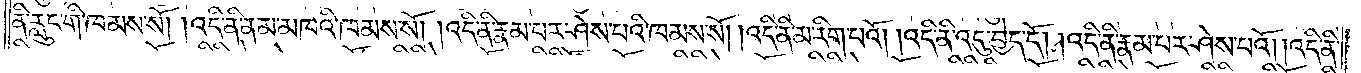ནི་རླུང་གི་ཁམས་སོ། །འདི་ནི་ནམ་མཁའི་ཁམས་སོ། །འདི་ནི་རྣམ་པར་ཤེས་པའི་ཁམས་སོ། །འདི་ནི་མ་རིག་པའོ། །འདི་ནི་འདུ་བྱེད་དོ། །འདི་ནི་རྣམ་པར་ཤེས་པའོ། །འདི་ནི་
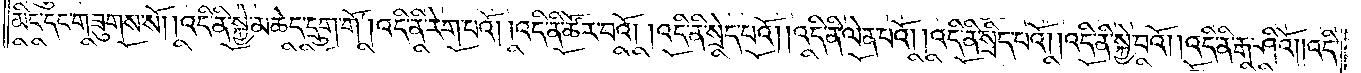མིང་དང་གཟུགས་སོ། །འདི་ནི་སྐྱེ་མཆེད་དྲུག་གོ །འདི་ནི་རེག་པའོ། །འདི་ནི་ཚོར་བའོ༎ འདི་ནི་སྲེད་པའོ། །འདི་ནི་ལེན་པའོ། །འདི་ནི་སྲིད་པའོ། །འདི་ནི་སྐྱེ་བའོ། །འདི་ནི་རྒ་ཤིའོ། །འདི་
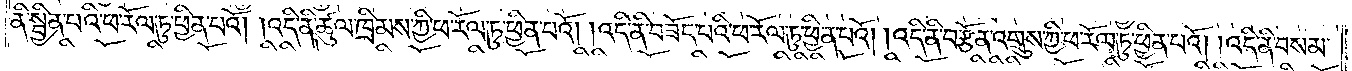ནི་སྦྱིན་པའི་ཕ་རོལ་ཏུ་ཕྱིན་པའོ། །འདི་ནི་ཚུལ་ཁྲིམས་ཀྱི་ཕ་རོལ་ཏུ་ཕྱིན་པའོ། །འདི་ནི་བཟོད་པའི་ཕ་རོལ་ཏུ་ཕྱིན་པའོ། །འདི་ནི་བརྩོན་འགྲུས་ཀྱི་ཕ་རོལ་ཏུ་ཕྱིན་པའོ། །འདི་ནི་བསམ་
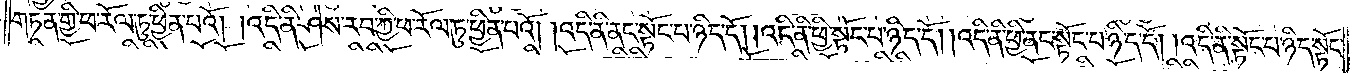གཏན་གྱི་ཕ་རོལ་ཏུ་ཕྱིན་པའོ། །འདི་ནི་ཤེས་རབ་ཀྱི་ཕ་རོལ་ཏུ་ཕྱིན་པའོ། །འདི་ནི་ནང་སྟོང་པ་ཉིད་དོ། །འདི་ནི་ཕྱི་སྟོང་པ་ཉིད་དོ། །འདི་ནི་ཕྱི་ནང་སྟོང་པ་ཉིད་དོ། །འདི་ནི་སྟོང་པ་ཉིད་སྟོང་
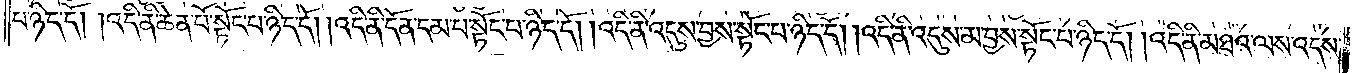པ་ཉིད་དོ། །འདི་ནི་ཆེན་པོ་སྟོང་པ་ཉིད་དོ། །འདི་ནི་དོན་དམ་པ་སྟོང་པ་ཉིད་དོ། །འདི་ནི་འདུས་བྱས་སྟོང་པ་ཉིད་དོ། །འདི་ནི་འདུས་མ་བྱས་སྟོང་པ་ཉིད་དོ། །འདི་ནི་མཐའ་ལས་འདས་
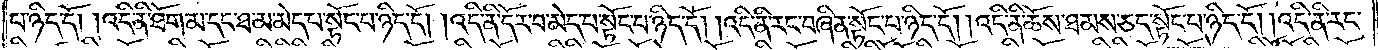པ་ཉིད་དོ། །འདི་ནི་ཐོག་མ་དང་ཐ་མ་མེད་པ་སྟོང་པ་ཉིད་དོ། །འདི་ནི་དོར་བ་མེད་པ་སྟོང་པ་ཉིད་དོ། །འདི་ནི་རང་བཞིན་སྟོང་པ་ཉིད་དོ། །འདི་ནི་ཆོས་ཐམས་ཅད་སྟོང་པ་ཉིད་དོ། །འདི་ནི་རང་
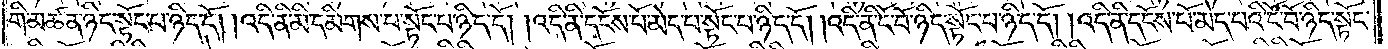གི་མཚན་ཉིད་སྟོང་པ་ཉིད་དོ། །འདི་ནི་མི་དམིགས་པ་སྟོང་པ་ཉིད་དོ། །འདི་ནི་དངོས་པོ་མེད་པ་སྟོང་པ་ཉིད་དོ། །འདི་ནི་ངོ་བོ་ཉིད་སྟོང་པ་ཉིད་དོ། །འདི་ནི་དངོས་པོ་མེད་པའི་ངོ་བོ་ཉིད་སྟོང་
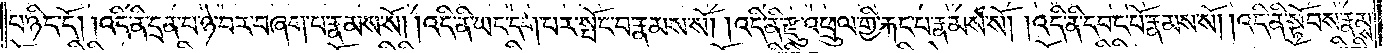པ་ཉིད་དོ། །འདི་ནི་དྲན་པ་ཉེ་བར་བཞག་པ་རྣམས་སོ། །འདི་ནི་ཡང་དག་པར་སྤོང་བ་རྣམས་སོ། །འདི་ནི་རྫུ་འཕྲུལ་གྱི་རྐང་པ་རྣམས་སོ། །འདི་ནི་དབང་པོ་རྣམས་སོ། །འདི་ནི་སྟོབས་རྣམས་
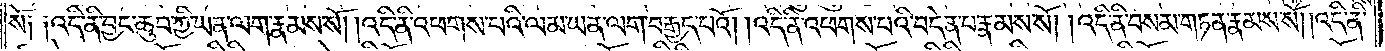སོ༑ ༑འདི་ནི་བྱང་ཆུབ་ཀྱི་ཡན་ལག་རྣམས་སོ། །འདི་ནི་འཕགས་པའི་ལམ་ཡན་ལག་བརྒྱད་པའོ། །འདི་ནི་འཕགས་པའི་བདེན་པ་རྣམས་སོ། །འདི་ནི་བསམ་གཏན་རྣམས་སོ། །འདི་ནི་
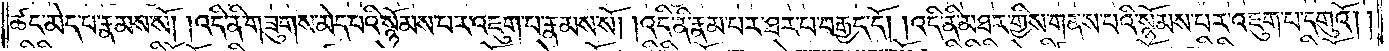ཚད་མེད་པ་རྣམས་སོ། །འདི་ནི་གཟུགས་མེད་པའི་སྙོམས་པར་འཇུག་པ་རྣམས་སོ། །འདི་ནི་རྣམ་པར་ཐར་པ་བརྒྱད་དོ། །འདི་ནི་མཐར་གྱིས་གནས་པའི་སྙོམས་པར་འཇུག་པ་དགུའོ། །
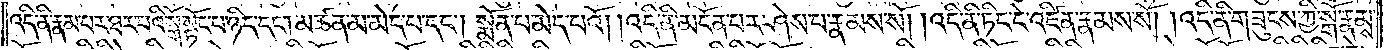འདི་ནི་རྣམ་པར་ཐར་པའི་སྒོ་སྟོང་པ་ཉིད་དང༌། མཚན་མ་མེད་པ་དང༌། སྨོན་པ་མེད་པའོ། །འདི་ནི་མངོན་པར་ཤེས་པ་རྣམས་སོ། །འདི་ནི་ཏིང་ངེ་འཛིན་རྣམས་སོ། །འདི་ནི་གཟུངས་ཀྱི་སྒོ་རྣམས་
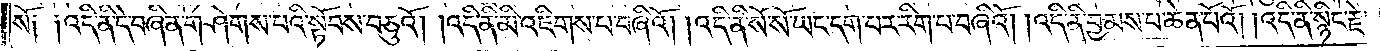སོ༑ ༑འདི་ནི་དེ་བཞིན་གཤེགས་པའི་སྟོབས་བཅུའོ། །འདི་ནི་མི་འཇིགས་པ་བཞིའོ། །འདི་ནི་སོ་སོ་ཡང་དག་པར་རིག་པ་བཞིའོ། །འདི་ནི་བྱམས་པ་ཆེན་པོའོ། །འདི་ནི་སྙིང་རྗེ་
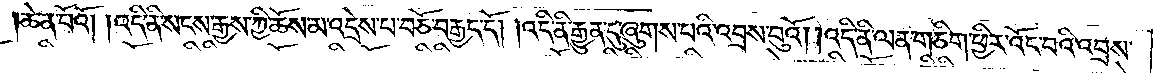ཆེན་པོའོ། །འདི་ནི་སངས་རྒྱས་ཀྱི་ཆོས་མ་འདྲེས་པ་བཅོ་བརྒྱད་དོ། །འདི་ནི་རྒྱུན་དུ་ཞུགས་པའི་འབྲས་བུའོ། །འདི་ནི་ལན་གཅིག་ཕྱིར་འོང་བའི་འབྲས་
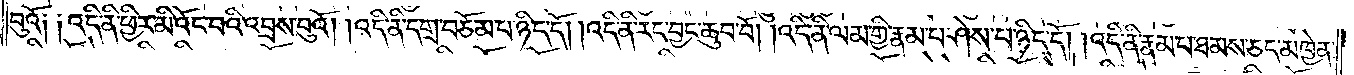བུའོ༑ ༑འདི་ནི་ཕྱིར་མི་འོང་བའི་འབྲས་བུའོ། །འདི་ནི་དགྲ་བཅོམ་པ་ཉིད་དོ། །འདི་ནི་རང་བྱང་ཆུབ་བོ། །འདི་ནི་ལམ་གྱི་རྣམ་པ་ཤེས་པ་ཉིད་དོ། །འདི་ནི་རྣམ་པ་ཐམས་ཅད་མཁྱེན་
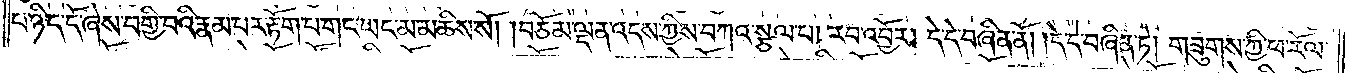པ་ཉིད་དོ་ཞེས་བགྱི་བའི་རྣམ་པར་རྟོག་པ་གང་ཡང་མ་མཆིས་སོ། །བཅོམ་ལྡན་འདས་ཀྱིས་བཀའ་སྩལ་པ། རབ་འབྱོར། དེ་དེ་བཞིན་ནོ། །དེ་དེ་བཞིན་ཏེ། གཟུགས་ཀྱི་ཕ་རོལ་
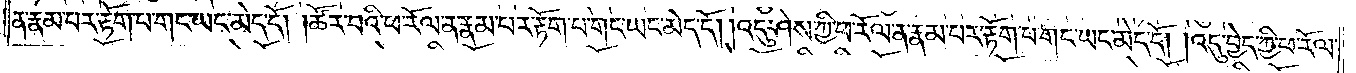ན་རྣམ་པར་རྟོག་པ་གང་ཡང་མེད་དོ། །ཚོར་བའི་ཕ་རོལ་ན་རྣམ་པར་རྟོག་པ་གང་ཡང་མེད་དོ། །འདུ་ཤེས་ཀྱི་ཕ་རོལ་ན་རྣམ་པར་རྟོག་པ་གང་ཡང་མེད་དོ། །འདུ་བྱེད་ཀྱི་ཕ་རོལ་
